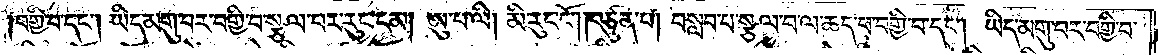བགྱི་བ་དང༌། ཡིད་མགུ་བར་བགྱི་བ་སྩལ་པར་རུང་ངམ། ཨུ་པ་ལི། མི་རུང་ངོ༌། །བཙུན་པ། བསླབ་པ་སྩལ་བ་ལ་ཆད་པ་བགྱི་བ་དང༌། ཡིད་མགུ་བར་བགྱི་བ་
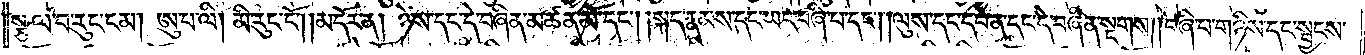སྩལ་བ་རུང་ངམ། ཨུ་པ་ལི། མི་རུང་ངོ༌། །མདོར་ན། ཉེས་དང་དེ་བཞིན་མཚན་མོ་དང༌། །སྐད་རྣམས་དང་ཡང་བཞི་པ་དང༌། །ལུས་དང་དབེན་དང་དེ་བཞིན་སྔགས། །བཞི་པ་གཉིས་དང་སྦྱངས་
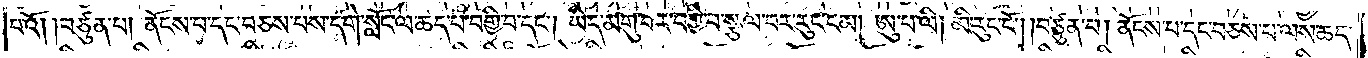པའོ། །བཙུན་པ། ནོངས་པ་དང་བཅས་པས་དགེ་སློང་ལ་ཆད་པ་བགྱི་བ་དང༌། ཡིད་མགུ་བར་བགྱི་བ་སྩལ་བར་རུང་ངམ། ཨུ་པ་ལི། མི་རུང་ངོ༌། །བཙུན་པ། ནོངས་པ་དང་བཅས་པ་ལས་ཆད་
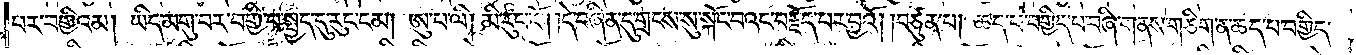པར་བགྱིའམ། ཡིད་མགུ་བར་བགྱི་བ་སྤྱད་དུ་རུང་ངམ། ཨུ་པ་ལི། མི་རུང་ངོ༌། །དེ་བཞིན་དུ་གྲངས་སུ་སྐོང་བའང་བརྗོད་པར་བྱའོ། །བཙུན་པ། ཆད་པ་བགྱིད་པ་བཞི་གནས་གཅིག་ན་ཆད་པ་བགྱིད་
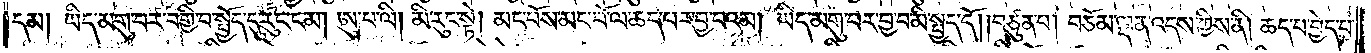དམ། ཡིད་མགུ་བར་བགྱི་བ་སྤྱོད་དུ་རུང་ངམ། ཨུ་པ་ལི། མི་རུང་སྟེ། མང་པོས་མང་པོ་ལ་ཆད་པར་བྱ་བའམ། ཡིད་མགུ་བར་བྱ་བ་མི་སྤྱད་དོ། །བཙུན་པ། བཅོམ་ལྡན་འདས་ཀྱིས་ནི། ཆད་པ་བྱེད་པ་
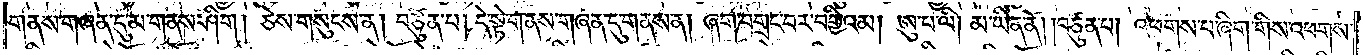གནས་གཞན་དུ་མ་གནས་ཤིག །ཅེས་གསུངས་ན། བཙུན་པ། དེ་སྟེ་གནས་གཞན་དུ་གནས་ན། ཞག་བགྲང་བར་བགྱིའམ། ཨུ་པ་ལི། མ་ཡིན་ནོ། །བཙུན་པ། འཕགས་པ་ཞིག་གིས་འཕགས་
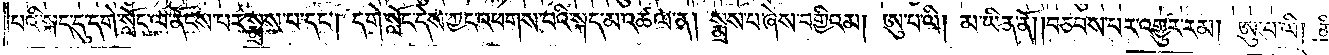པའི་སྐད་དུ་དགེ་སློང་ལ་ནོངས་པར་སྨྲས་པ་དང༌། དགེ་སློང་དེས་ཀྱང་འཕགས་པའི་སྐད་མ་འཚལ་ན། སྨྲས་པ་ཞེས་བགྱིའམ། ཨུ་པ་ལི། མ་ཡིན་ནོ། །བཅབས་པར་འགྱུར་རམ། ཨུ་པ་ལི། མི་
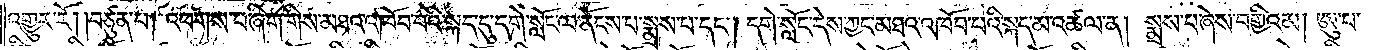འགྱུར་རོ། །བཙུན་པ། འཕགས་པ་ཞིག་གིས་མཐའ་འཁོབ་པའི་སྐད་དུ་དགེ་སློང་ལ་ནོངས་པ་སྨྲས་པ་དང༌། དགེ་སློང་དེས་ཀྱང་མཐའ་འཁོབ་པའི་སྐད་མ་འཚལ་ན། སྨྲས་པ་ཞེས་བགྱིའམ། ཨུ་པ་
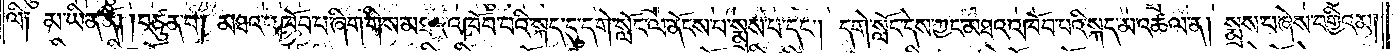ལི༑ མ་ཡིན་ནོ། །བཙུན་པ། མཐའ་འཁོབ་པ་ཞིག་གིས་མཐའ་འཁོབ་པའི་སྐད་དུ་དགེ་སློང་ལ་ནོངས་པ་སྨྲས་པ་དང༌། དགེ་སློང་དེས་ཀྱང་མཐའ་འཁོབ་པའི་སྐད་མ་འཚལ་ན། སྨྲས་པ་ཞེས་བགྱིའམ།
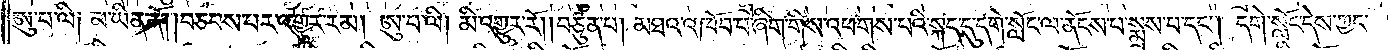ཨུ་པ་ལི༑ མ་ཡིན་ནོ། །བཅབས་པར་འགྱུར་རམ། ཨུ་པ་ལི། མི་འགྱུར་རོ། །བཙུན་པ། མཐའ་འཁོབ་པ་ཞིག་གིས་འཕགས་པའི་སྐད་དུ་དགེ་སློང་ལ་ནོངས་པ་སྨྲས་པ་དང༌། དགེ་སློང་དེས་ཀྱང་
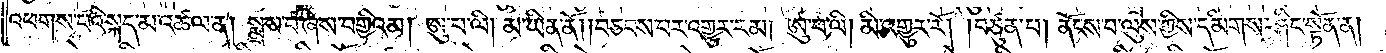འཕགས་པའི་སྐད་མ་འཚལ་ན། སྨྲས་པ་ཞེས་བགྱིའམ། ཨུ་པ་ལི། མ་ཡིན་ནོ། །བཅབས་པར་འགྱུར་རམ། ཨུ་པ་ལི། མི་འགྱུར་རོ། །བཙུན་པ། ནོངས་པ་ལུས་ཀྱིས་དམིགས་ཤིང་སྟོན་ན།
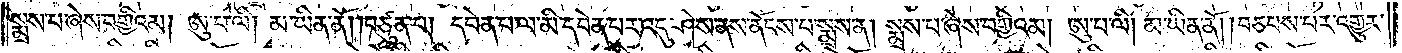སྨྲས་པ་ཞེས་བགྱིའམ། ཨུ་པ་ལི། མ་ཡིན་ནོ། །བཙུན་པ། དབེན་པ་ལ་མི་དབེན་པར་འདུ་ཤེས་ནས་ནོངས་པ་སྨྲས་ན། སྨྲས་པ་ཞེས་བགྱིའམ། ཨུ་པ་ལི། མ་ཡིན་ནོ། །བཅབས་པར་འགྱུར་
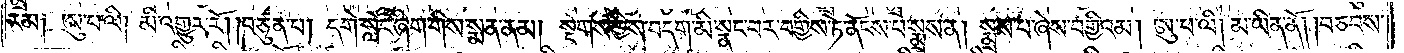རམ༑ ཨུ་པ་ལི། མི་འགྱུར་རོ། །བཙུན་པ། དགེ་སློང་ཞིག་གིས་སྨན་ནམ། སྔགས་ཀྱིས་བདག་མི་སྣང་བར་བགྱིས་ཏེ་ནོངས་པ་སྨྲས་ན། སྨྲས་པ་ཞེས་བགྱིའམ། ཨུ་པ་ལི། མ་ཡིན་ནོ། །བཅབས་
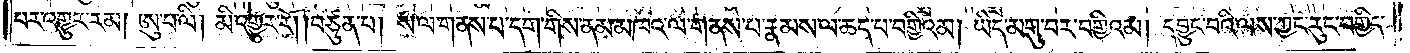པར་འགྱུར་རམ། ཨུ་པ་ལི། མི་འགྱུར་རོ། །བཙུན་པ། ས་ལ་གནས་པ་དག་གིས་ནམ་མཁའ་ལ་གནས་པ་རྣམས་ལ་ཆད་པ་བགྱིའམ། ཡིད་མགུ་བར་བགྱིའམ། དབྱུང་བའི་ལས་ཀྱང་རུང་བགྱིད་
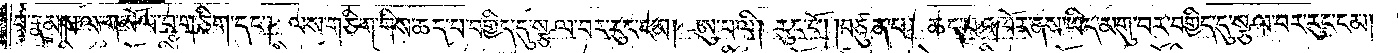པ་རྣམས་ལ་གསོལ་བ་གཅིག་དང༌། ལས་གཅིག་གིས་ཆད་པ་བགྱིད་དུ་སྩལ་བར་རུང་ངམ། ཨུ་པ་ལི། རུང་ངོ༌། །བཙུན་པ། ཆད་པ་འཁོར་ནས་ཡིད་མགུ་བར་བགྱིད་དུ་སྩལ་བར་རུང་ངམ།
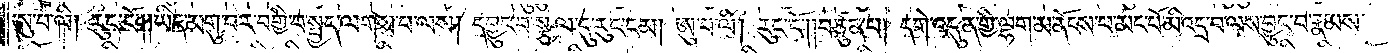ཨུ་པ་ལི། རུང་ངོ༌། །ཡིད་མགུ་བར་བགྱི་བ་སྤྱད་ལགས་པ་ལས། དབྱུང་བ་སྩལ་དུ་རུང་ངམ། ཨུ་པ་ལི། རུང་ངོ༌། །བཙུན་པ། དགེ་འདུན་གྱི་ལྷག་མ་ནོངས་པ་མང་པོ་མི་འདྲ་བ་ལས་བྱུང་བ་རྣམས་
